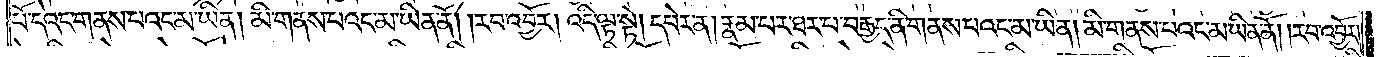པོ་དེའང་གནས་པའང་མ་ཡིན། མི་གནས་པའང་མ་ཡིན་ནོ། །རབ་འབྱོར། འདི་ལྟ་སྟེ། དཔེར་ན། རྣམ་པར་ཐར་པ་བརྒྱད་ནི་གནས་པའང་མ་ཡིན། མི་གནས་པའང་མ་ཡིན་ནོ། །རབ་འབྱོར།
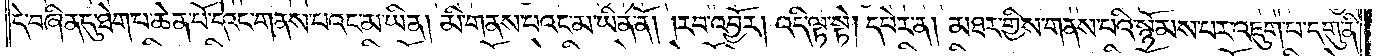དེ་བཞིན་དུ་ཐེག་པ་ཆེན་པོ་དེའང་གནས་པའང་མ་ཡིན། མི་གནས་པའང་མ་ཡིན་ནོ། །རབ་འབྱོར། འདི་ལྟ་སྟེ། དཔེར་ན། མཐར་གྱིས་གནས་པའི་སྙོམས་པར་འཇུག་པ་དགུ་ནི་
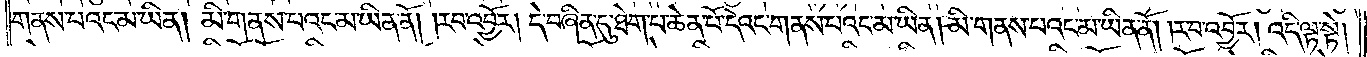གནས་པའང་མ་ཡིན། མི་གནས་པའང་མ་ཡིན་ནོ། །རབ་འབྱོར། དེ་བཞིན་དུ་ཐེག་པ་ཆེན་པོ་དེའང་གནས་པའང་མ་ཡིན། མི་གནས་པའང་མ་ཡིན་ནོ། །རབ་འབྱོར། འདི་ལྟ་སྟེ།
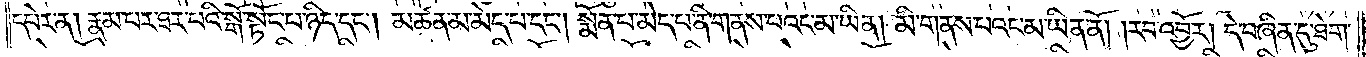དཔེར་ན། རྣམ་པར་ཐར་པའི་སྒོ་སྟོང་པ་ཉིད་དང༌། མཚན་མ་མེད་པ་དང༌། སྨོན་པ་མེད་པ་ནི་གནས་པའང་མ་ཡིན། མི་གནས་པའང་མ་ཡིན་ནོ། །རབ་འབྱོར། དེ་བཞིན་དུ་ཐེག་
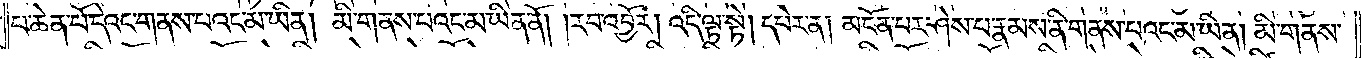པ་ཆེན་པོ་དེའང་གནས་པའང་མ་ཡིན། མི་གནས་པའང་མ་ཡིན་ནོ། །རབ་འབྱོར། འདི་ལྟ་སྟེ། དཔེར་ན། མངོན་པར་ཤེས་པ་རྣམས་ནི་གནས་པའང་མ་ཡིན། མི་གནས་
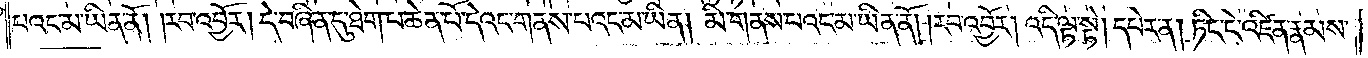པའང་མ་ཡིན་ནོ། །རབ་འབྱོར། དེ་བཞིན་དུ་ཐེག་པ་ཆེན་པོ་དེའང་གནས་པའང་མ་ཡིན། མི་གནས་པའང་མ་ཡིན་ནོ། །རབ་འབྱོར། འདི་ལྟ་སྟེ། དཔེར་ན། ཏིང་ངེ་འཛིན་རྣམས་
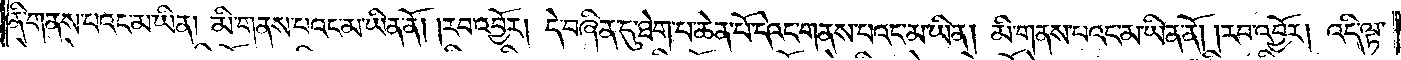ནི་གནས་པའང་མ་ཡིན། མི་གནས་པའང་མ་ཡིན་ནོ། །རབ་འབྱོར། དེ་བཞིན་དུ་ཐེག་པ་ཆེན་པོ་དེའང་གནས་པའང་མ་ཡིན། མི་གནས་པའང་མ་ཡིན་ནོ། །རབ་འབྱོར། འདི་ལྟ་
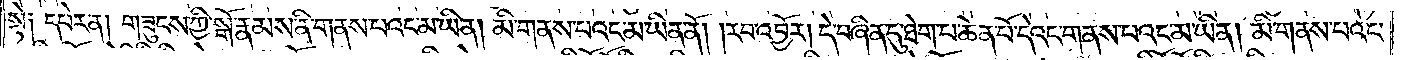སྟེ༑ དཔེར་ན། གཟུངས་ཀྱི་སྒོ་རྣམས་ནི་གནས་པའང་མ་ཡིན། མི་གནས་པའང་མ་ཡིན་ནོ། །རབ་འབྱོར། དེ་བཞིན་དུ་ཐེག་པ་ཆེན་པོ་དེའང་གནས་པའང་མ་ཡིན། མི་གནས་པའང་
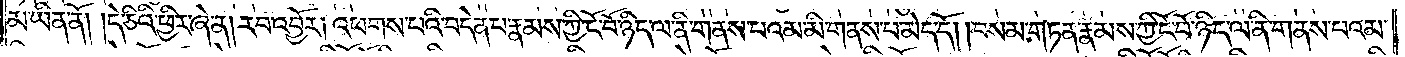མ་ཡིན་ནོ། །དེ་ཅིའི་ཕྱིར་ཞེ་ན། རབ་འབྱོར། འཕགས་པའི་བདེན་པ་རྣམས་ཀྱི་ངོ་བོ་ཉིད་ལ་ནི་གནས་པའམ་མི་གནས་པ་མེད་དོ། །བསམ་གཏན་རྣམས་ཀྱི་ངོ་བོ་ཉིད་ལ་ནི་གནས་པའམ་
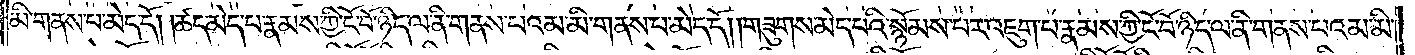མི་གནས་པ་མེད་དོ། །ཚད་མེད་པ་རྣམས་ཀྱི་ངོ་བོ་ཉིད་ལ་ནི་གནས་པའམ་མི་གནས་པ་མེད་དོ། །གཟུགས་མེད་པའི་སྙོམས་པར་འཇུག་པ་རྣམས་ཀྱི་ངོ་བོ་ཉིད་ལ་ནི་གནས་པའང་མི་
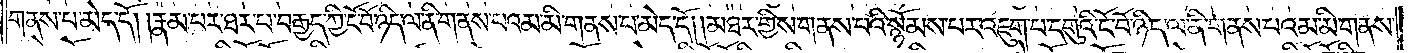གནས་པ་མེད་དོ། །རྣམ་པར་ཐར་པ་བརྒྱད་ཀྱི་ངོ་བོ་ཉིད་ལ་ནི་གནས་པའམ་མི་གནས་པ་མེད་དོ། །མཐར་གྱིས་གནས་པའི་སྙོམས་པར་འཇུག་པ་དགུའི་ངོ་བོ་ཉིད་ལ་ནི་གནས་པའམ་མི་གནས་
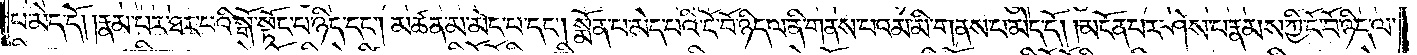པ་མེད་དོ། །རྣམ་པར་ཐར་པའི་སྒོ་སྟོང་པ་ཉིད་དང༌། མཚན་མ་མེད་པ་དང༌། སྨོན་པ་མེད་པའི་ངོ་བོ་ཉིད་ལ་ནི་གནས་པའམ་མི་གནས་པ་མེད་དོ། །མངོན་པར་ཤེས་པ་རྣམས་ཀྱི་ངོ་བོ་ཉིད་ལ་
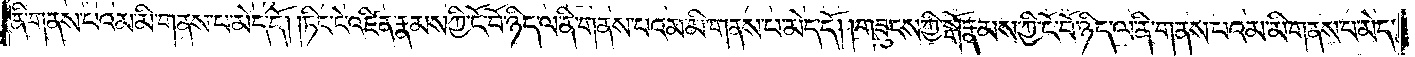ནི་གནས་པའམ་མི་གནས་པ་མེད་དོ། །ཏིང་ངེ་འཛིན་རྣམས་ཀྱི་ངོ་བོ་ཉིད་ལ་ནི་གནས་པ་འམ་མི་གནས་པ་མེད་དོ། །གཟུངས་ཀྱི་སྒོ་རྣམས་ཀྱི་ངོ་བོ་ཉིད་ལ་ནི་གནས་པ་འམ་མི་གནས་པ་མེད་
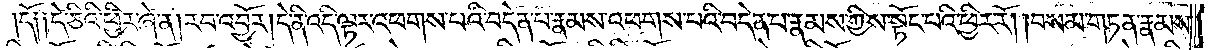དོ༑ ༑དེ་ཅིའི་ཕྱིར་ཞེ་ན། རབ་འབྱོར། དེ་ནི་འདི་ལྟར་འཕགས་པའི་བདེན་པ་རྣམས་འཕགས་པའི་བདེན་པ་རྣམས་ཀྱིས་སྟོང་པའི་ཕྱིར་རོ། །བསམ་གཏན་རྣམས་
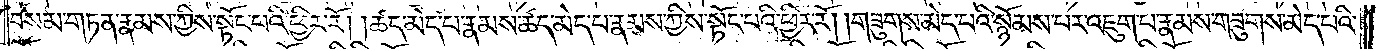བསམ་གཏན་རྣམས་ཀྱིས་སྟོང་པའི་ཕྱིར་རོ། །ཚད་མེད་པ་རྣམས་ཚད་མེད་པ་རྣམས་ཀྱིས་སྟོང་པའི་ཕྱིར་རོ། །གཟུགས་མེད་པའི་སྙོམས་པར་འཇུག་པ་རྣམས་གཟུགས་མེད་པའི་
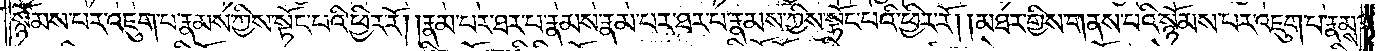སྙོམས་པར་འཇུག་པ་རྣམས་ཀྱིས་སྟོང་པའི་ཕྱིར་རོ། །རྣམ་པར་ཐར་པ་རྣམས་རྣམ་པར་ཐར་པ་རྣམས་ཀྱིས་སྟོང་པའི་ཕྱིར་རོ། །མཐར་གྱིས་གནས་པའི་སྙོམས་པར་འཇུག་པ་རྣམས་
